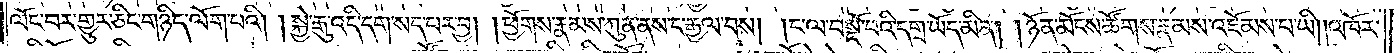ལོང་བར་གྱུར་ཅིང་གཉིད་ལོག་པའི། །སྐྱེ་རྒུ་འདི་དག་སད་པར་བྱ། །ཕྱོགས་རྣམས་ཀུན་ནས་ང་རྒྱལ་བས། །ང་ལ་བསྡོ་བའི་དགྲ་ཡོད་མིན། །ཉོན་མོངས་ཚོགས་རྣམས་འཇོམས་པ་ཡི། །འཁོར་
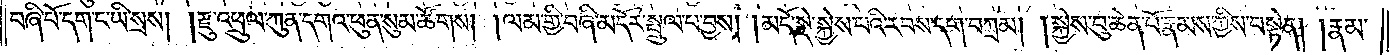བཞི་པོ་དག་ང་ཡི་སྲས། །རྫུ་འཕྲུལ་ཀུན་དགའ་ཕུན་སུམ་ཚོགས། །ལམ་གྱི་བཞི་མདོར་སྤྲུལ་པ་བྱས། །མདོ་སྡེ་སྐྱེས་པའི་རབས་དག་བཀྲམ། །སྐྱེས་བུ་ཆེན་པོ་རྣམས་ཀྱིས་བསྟེན། །རྣམ་
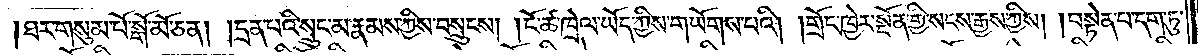།ཐར་གསུམ་པོ་སྒོ་མོ་ཅན། །དྲན་པའི་སྲུང་མ་རྣམས་ཀྱིས་བསྲུངས། །ངོ་ཚ་ཁྲེལ་ཡོད་ཀྱིས་གཡོགས་པའི། །གྲོང་ཁྱེར་སྔོན་གྱི་སངས་རྒྱས་ཀྱིས། །བསྟེན་པ་དག་ཏུ་
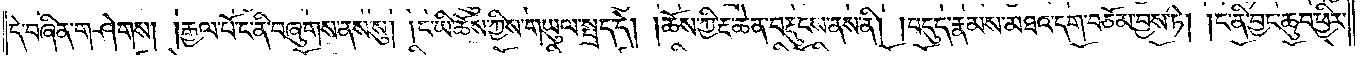དེ་བཞིན་གཤེགས། །རྒྱལ་པོ་ང་ནི་བཞུགས་ནས་སུ། །ང་ཡི་ཆོས་ཀྱིས་གཡུལ་སྤྲད་དེ། །ཆོས་ཀྱི་རྔ་ཆེན་བརྡུངས་ནས་ནི། །བདུད་རྣམས་མཐའ་དག་བཅོམ་བྱས་ཏེ། །ང་ནི་བྱང་ཆུབ་ཕྱིར་
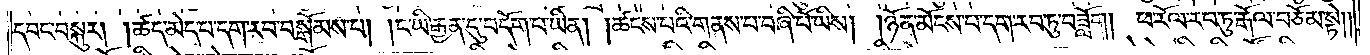དབང་བསྐུར། །ཚད་མེད་པ་དག་རབ་བསྒོམས་པ། །ང་ཡི་རྒྱན་དུ་བདོག་པ་ཡིན། །ཚངས་པའི་གནས་པ་བཞི་པོ་ཡིས། །ཉོན་མོངས་པ་དག་རབ་ཏུ་བཟློག །ཕ་རོལ་རབ་ཏུ་རྒོལ་བཅོམ་སྟེ། །
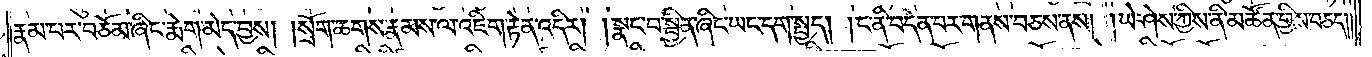རྣམ་པར་བཅོམ་ཞིང་རྨེག་མེད་བྱས། །སྲོག་ཆགས་རྣམས་ལ་འཇིག་རྟེན་འདིར། །སྣང་བ་སྦྱིན་ཞིང་ཡང་དག་སྤྱད། །ང་ནི་བདེན་པར་གནས་བཅས་ནས། །ཡེ་ཤེས་ཀྱིས་ནི་མཚོན་གྱིས་བཅད། །
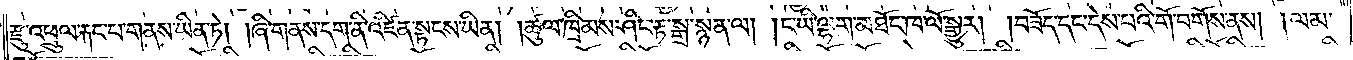རྫུ་འཕྲུལ་རྐང་པ་གནས་ཡིན་ཏེ། །ཞི་གནས་དག་ནི་འཛིན་སྟངས་ཡིན། །ཚུལ་ཁྲིམས་ཤིང་རྟ་སྒྲ་སྙན་ལ། །ང་ཡི་ལྷག་མཐོང་ཁ་ལོ་སྒྱུར། །བཟོད་དང་དེས་པའི་གོ་བགོས་ནས། །ལམ་
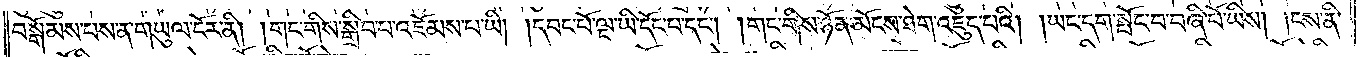བསྒོམས་པས་ན་གཡུལ་ངོར་ནི། །གང་གིས་སྒྲིབ་པ་འཇོམས་པ་ཡི། །དབང་པོ་ལྔ་ཡི་དོང་པ་དང༌། །གང་གིས་ཉོན་མོངས་ཐེག་འཇུད་པའི། །ཡང་དག་སྤོང་བ་བཞི་པོ་ཡིས། །ངས་ནི་
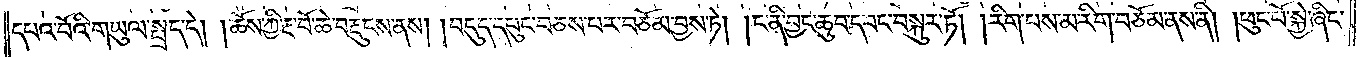དཔའ་བོའི་གཡུལ་སྤྲད་དེ། །ཆོས་ཀྱི་རྔ་བོ་ཆེ་བརྡུངས་ནས། །བདུད་དཔུང་བཅས་པར་བཅོམ་བྱས་ཏེ། །ང་ནི་བྱང་ཆུབ་དབང་བསྐུར་ཏོ། །རིག་པས་མ་རིག་བཅོམ་ནས་ནི། །ཕུང་པོ་སྐྱེ་ཞིང་
